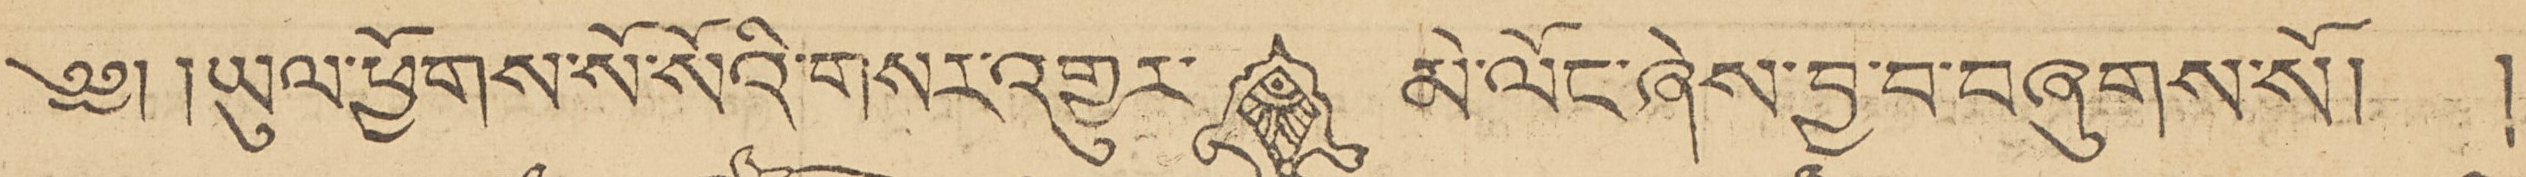༄༅། །ཡུལ་ཕྱོགས་སོ་སོའི་གསར་འགྱུར་ མེ་ལོང་ཞེས་བྱ་བ་བཞུགས་སོ། །
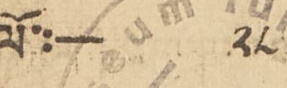ལོ་:— ༢༨
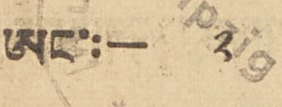ཨང་:— ༢
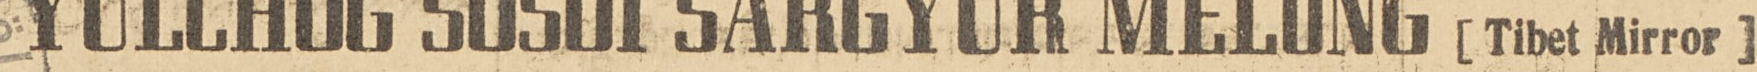YULCHOG SOSOI SARGYUR MELONG [Tibet Mirror]
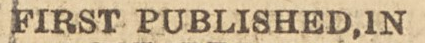FIRST PUBLISHED, IN
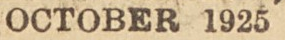OCTOBER 1925
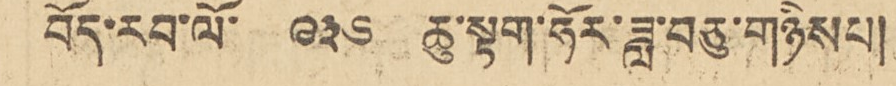བོད་རབ་ལོ་ ༩༣༦ ཆུ་སྟག་ཧོར་ཟླ་བཅུ་གཉིས་པ།
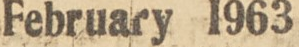February 1963
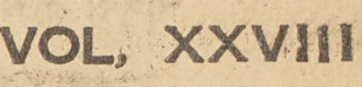VOL, XXVIII
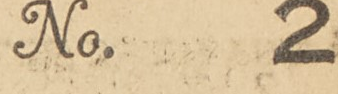No. 2
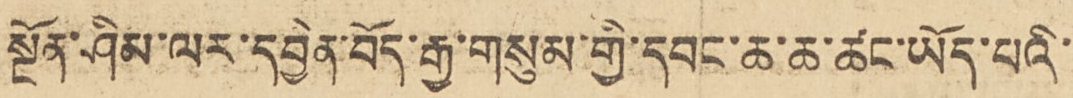སྔོན་ཤིམ་ལར་དབྱིན་བོད་རྒྱ་གསུམ་གྱི་དབང་ཆ་ཆ་ཚང་ཡོད་པའི་
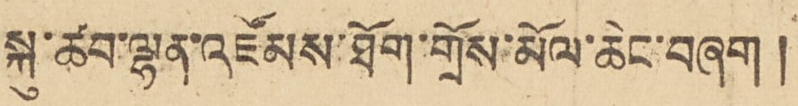སྐུ་ཚབ་ལྷན་འཛོམས་ཐོག་གྲོས་མོལ་ཆིང་བཞག །
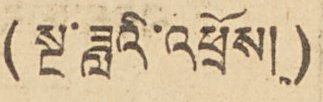(སྔ་ཟླའི་འཕྲོས།)
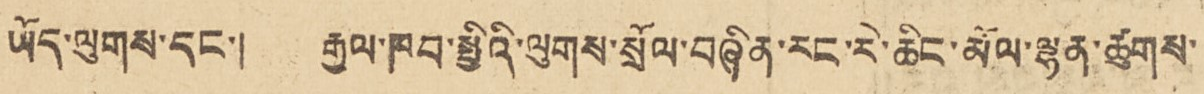ཡོད་ལུགས་དང་། རྒྱལ་ཁབ་སྤྱིའི་ལུགས་སྲོལ་བཞིན་རང་རེ་ཆིང་མོལ་ལྷན་ཚུགས་
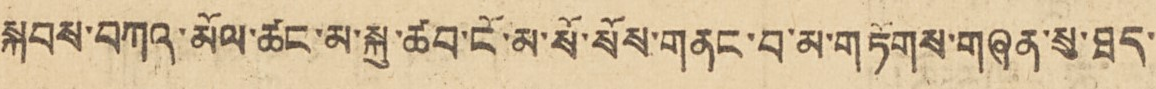སྐབས་བཀའ་མོལ་ཚང་མ་སྐུ་ཚབ་ངོ་མ་སོ་སོས་གནང་བ་མ་གཏོགས་གཞན་སུ་ཐད་
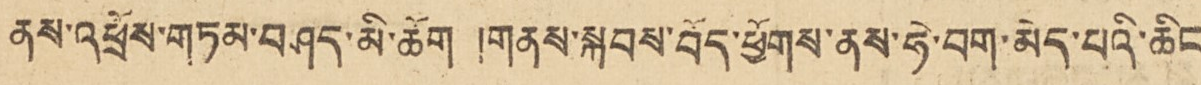ནས་འཕྲོས་གཏམ་བཤད་མི་ཆོག །གནས་སྐབས་བོད་ཕྱོགས་ནས་ཧེ་བག་མེད་པའི་ཆིང
